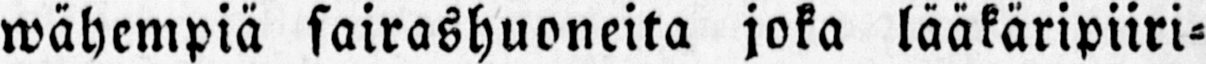wähempiä sairashuoneita joka lääkäripiiri-
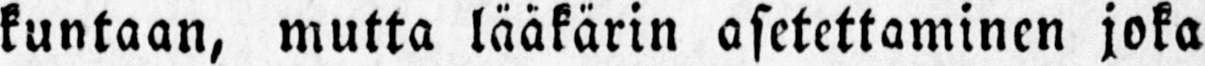kuntaan, mutta lääkärin asetettaminen joka
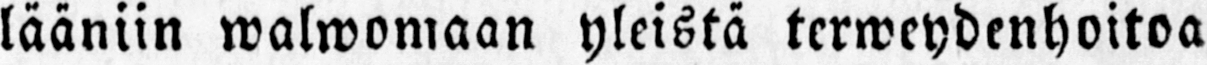lääniin walwomaan yleistä terweydenhoitoa
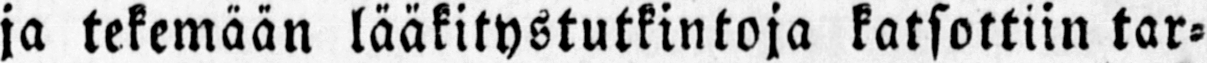ja tekemään lääkitystutkintoja katsottiin tar-
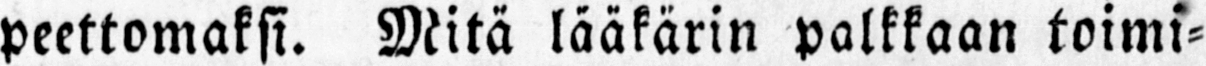peettomaksi. Mitä lääkärin palkkaan toimi-
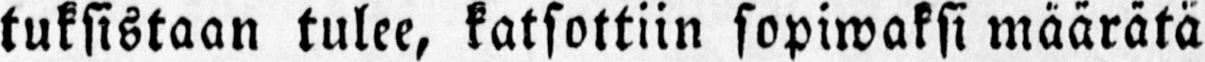tuksistaan tulee, katsottiin sopiwaksi määrätä
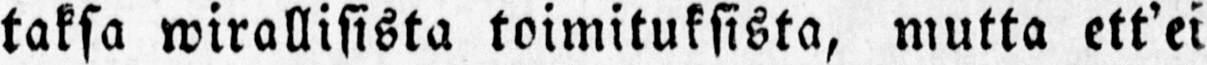taksa wirallisista toimituksista, mutta ett'ei
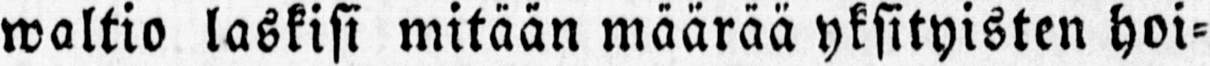waltio laskisi mitään määrää yksityisten hoi-
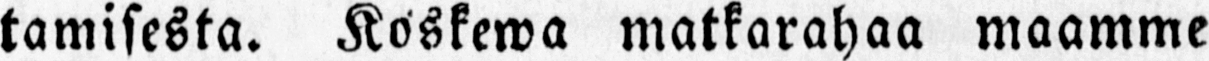tamisesta. Koskewa matkarahaa maamme
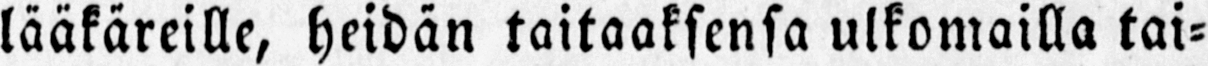lääkäreille, heidän taitaaksensa ulkomailla tai-
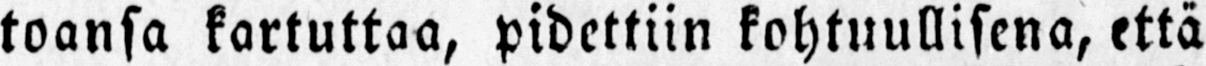toansa kartuttaa, pidettiin kohtuullisena, että
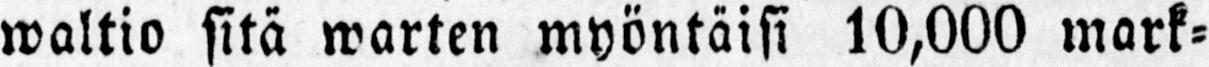waltio sitä warten myöntäisi 10,000 mark-
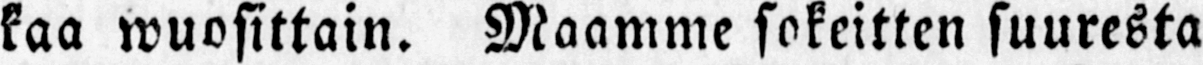kaa wuosittain. Maamme sokeitten suuresta
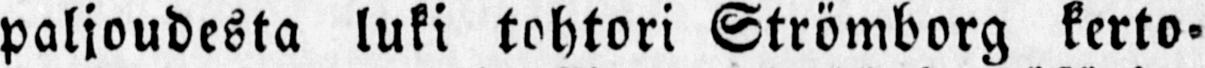paljoudesta luki tohtori Strömborg kerto-
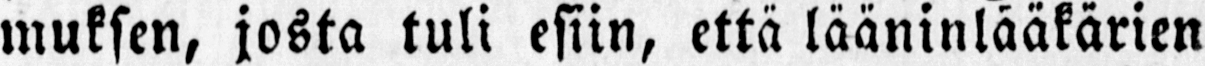muksen, josta tuli esiin, että lääninlääkärien
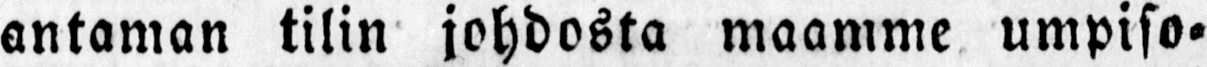antaman tilin johdosta maamme umpiso-
